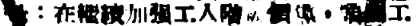是：在繼續加強工人階級領導，鞏固工
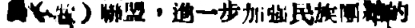農（牧）聯盟，進一步加強民族團結的
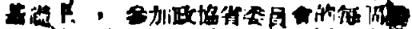基礎上 ，參加政協省委員會的每個委
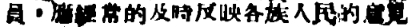員，應經常的即時反映各族人民的意見
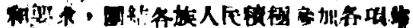和要求，團結各族人民積極參加各項生
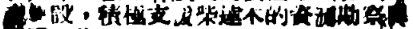產建設，積極支援柴達木的資源勘察與
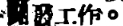開發工作。
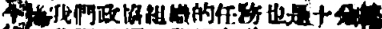今後我們政協組織的任務也是十分艱
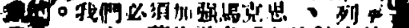巨的。我們必須加強馬克思 、列寧主
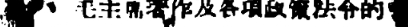義 、毛主席著作及各項政策法令的學
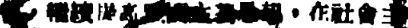習，繼續提高愛國主義思想，在社會主
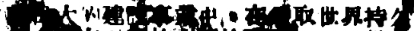義偉大的建設事業中，在爭取世界持久
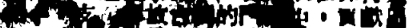和平，支援解放台灣的鬥爭中，貢獻出
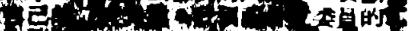自己的一份力量，     委員的工
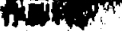作勝利！
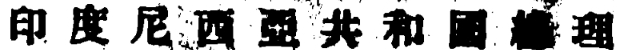印度尼西亞共和國總理
